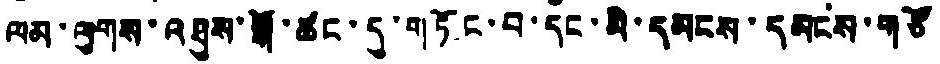ལམ་ལུགས་འཐུས་སྒོ་ཚང་དུ་གཏོང་བ་དང་མི་དམངས་དམངས་གཙོ
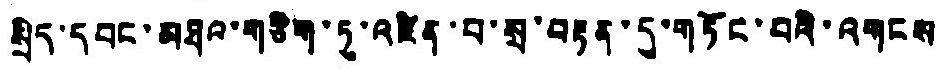སྲིད་དབང་མཐའ་གཅིག་ཏུ་འཛིན་བ་སྲ་བརྟན་དུ་གཏོང་བའི་འགངས
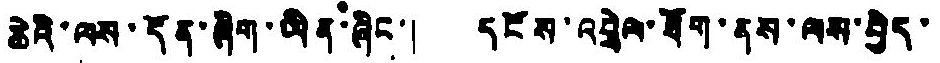ཆེའི་ལས་དོན་ཞིག་ཡིན་ཞིང་། དངོས་འབྲེལ་ཐོག་ནས་ལས་བྱེད་
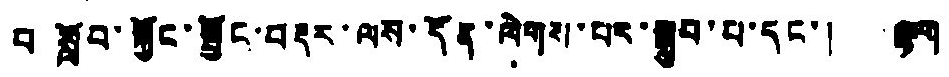བ སློབ་སྐྱོང་སྦྱོང་བརྡར་ལས་དོན་ལེགས་པར་སྒྲུབ་པ་དང་། ལྷག་
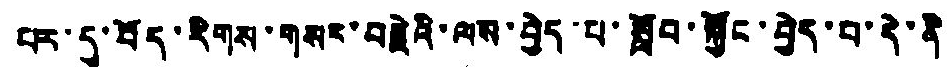པར་དུ་བོད་རིགས་གསར་བརྗེའི་ལས་བྱེད་པ་སློབ་སྐྱོང་བྱེད་པ་དེ་ནི
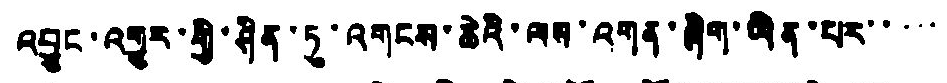འབྱུང་འགྱུར་གྱི་ཤིན་ཏུ་འགངས་ཆེའི་ལས་འགན་ཞིག་ཡིན་པར་་་་་་
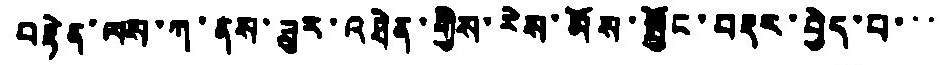བརྟེན་ལས་ཀ་ནས་ཟུར་འཐེན་གྱིས་རེས་མོས་སྦྱོང་བརྡར་བྱེད་པ་་་
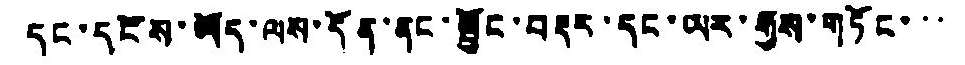དང་དངོས་ཡོད་ལས་དོན་ནང་སྦྱོང་བརྡར་དང་ཡར་རྒྱས་གཏོང་་་
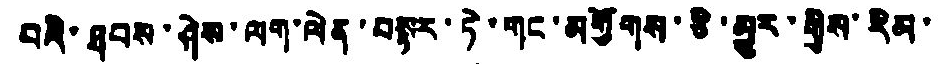བའི་ཐབས་ཤེས་ལག་ལེན་བསྟར་ཏེ་གང་མགྱོགས་ཅི་མྱུར་གྱིས་རིམ་
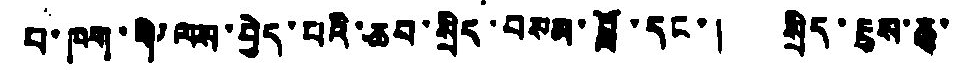བ་ཁག་འི་ལས་བྱེད་པའི་ཆབ་སྲིད་བསམ་བློ་དང་། སྲིད་ཇུས་ཆུ་
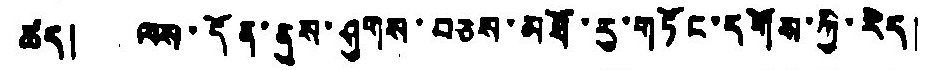ཚད། ལས་དོན་ནུས་ཤུགས་བཅས་མཐོ་རུ་གཏོང་དགོས་ཀྱི་རེད།
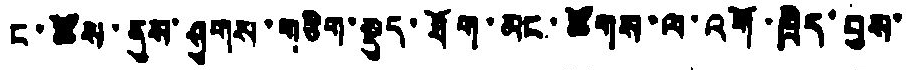ང་ཚོས་ནུས་ཤུགས་གཅིག་སྡུད་ཐོག་མང་ཚོགས་ལ་འགོ་ཁྲིད་བྱས་
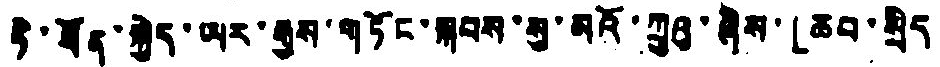ཏེ་ཐོན་སྐྱེད་ཡར་རྒྱས་གཏོང་སྐབས་སུ་མའོ་ཀྲུའུ་ཞིས་「ཆབ་སྲིད
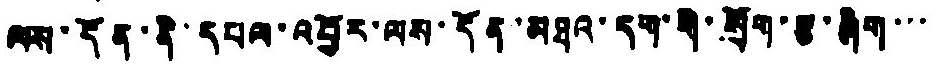ལས་དོན་ནི་དཔལ་འབྱོར་ལས་དོན་མཐའ་དག་གི་ཐོག་རྩ་ཞིག་་་
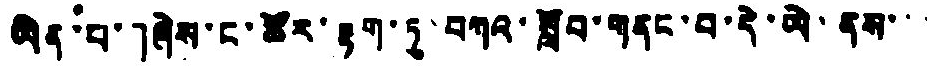ཡིན་པ་」ཞེས་ང་ཚོར་རྟག་ཏུ་བཀའ་སློབ་གནང་བ་དེ་ཡེ་ནས་་་
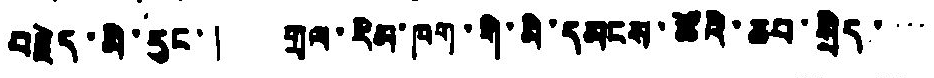བརྗེད་མི་རུང་། གྲལ་རིམ་ཁག་གི་མི་དམངས་ཚོའི་ཆབ་སྲིད་་་་
